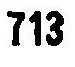713
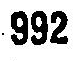992
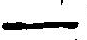—
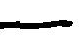—
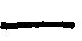—
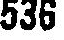536
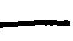—
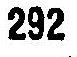292
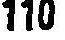110
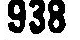938
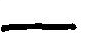—
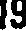19
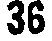36
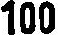100
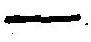—
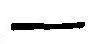—
